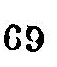69
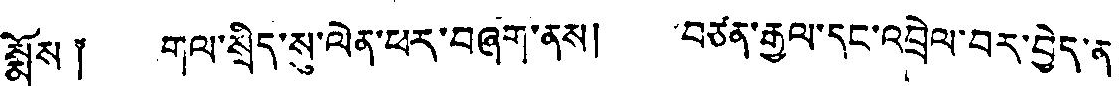སྨོས ༐ གལ་སྲིད་སུ་ལེན་ཕར་བཞག་ནས། བཙན་རྒྱལ་དང་འབྲེལ་བར་བྱེད་ན་
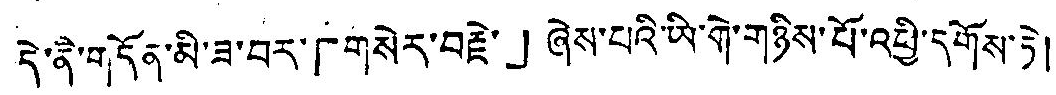དེ་ནི་གདོན་མི་ཟ་བར་「གསེར་བརྗེ་」ཞེས་པའི་ཡི་གེ་གཉིས་པོ་འཕྱི་དགོས་དེ།
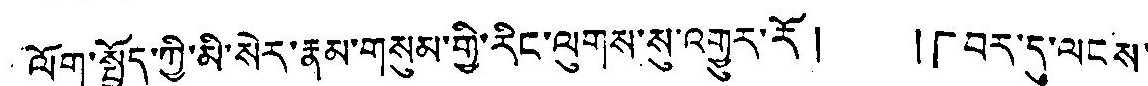ལོག་སྤྱོད་ཀྱི་མི་སེར་རྣམ་གསུམ་གྱི་རིང་ལུགས་སུ་འགྱུར་རོ། །「བར་དུ་ལངས་
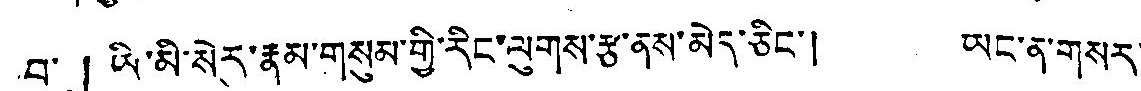བ་」ཡི་མི་སེར་རྣམ་གསུམ་གྱི་རིང་ལུགས་རྩ་ནས་མེད་ཅིང་། ཡང་ན་གསར་
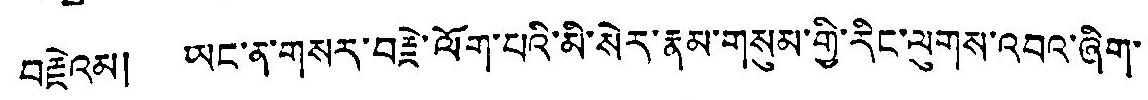བརྗེའམ། ཡང་ན་གསར་བརྗེ་ལོག་པའི་མི་སེར་རྣམ་གསུམ་གྱི་རིང་ལུགས་འབའ་ཞིག་
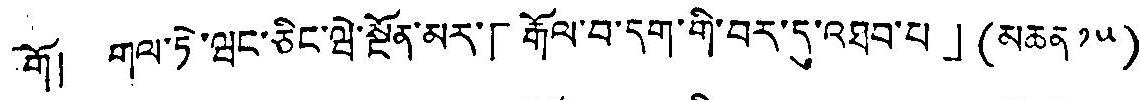གོ། གལ་ཏེ་ཝང་ཅིང་ཝེ་སྔོན་མར་「རྒོལ་བ་དག་གི་བར་དུ་འཐབ་པ」(མཆན ༡༥)
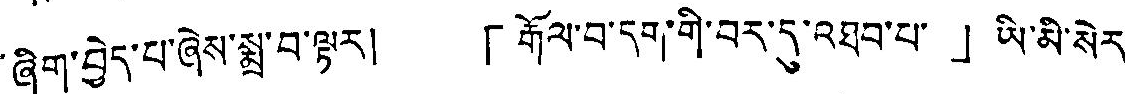ཞིག་བྱེད་པ་ཞེས་སྨྲ་བ་ལྟར། 「རྒོལ་བ་དག་གི་བར་དུ་འཐབ་པ་」ཡི་མི་སེར་
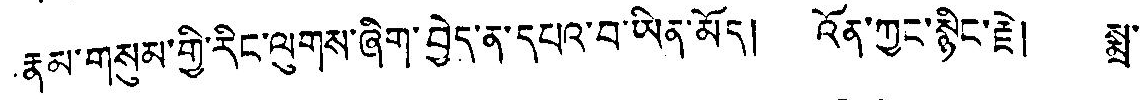རྣམ་གསུམ་གྱི་རིང་ལུགས་ཞིག་བྱེད་ན་དཔའ་བ་ཡིན་མོད། འོན་ཀྱང་སྙིང་རྗེ། སྨྲ་
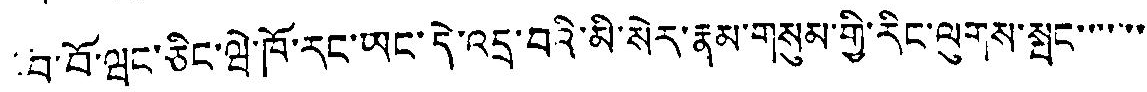བྱ་བོ་ཝང་ཅིང་ཝེ་ཁོ་རང་ཡང་དེ་འདྲ་བའི་མི་སེར་རྣམ་གསུམ་གྱི་རིང་ལུགས་སྤང་་་་་་་
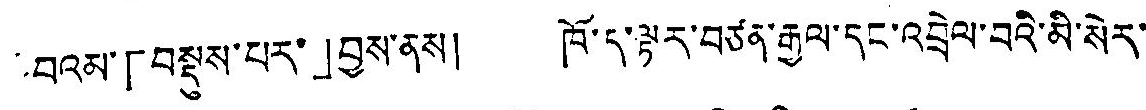བའམ་「བསྡུས་པར་」བྱས་ནས། ཁོ་ད་སྟར་བཙན་རྒྱལ་དང་འབྲེལ་བའི་མི་སེར་
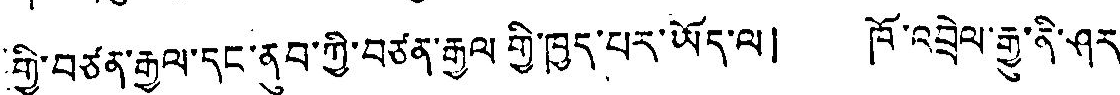གྱི་བཙན་རྒྱལ་དང་ནུབ་ཀྱི་བཙན་རྒྱལ་གྱི་ཁྱད་པར་ཡོད་ལ། ཁོ་འབྲེལ་རྒྱུ་ནི་ཤར་
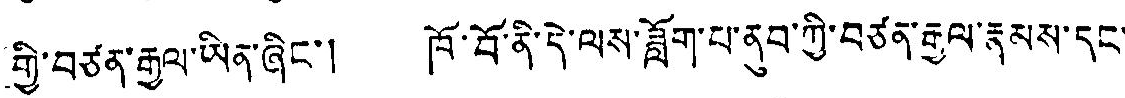གྱི་བཙན་རྒྱལ་ཡིན་ཞིང་། ཁོ་བོ་ནི་དེ་ལས་ཟློག་པ་ནུབ་ཀྱི་བཙན་རྒྱལ་རྣམས་དང་
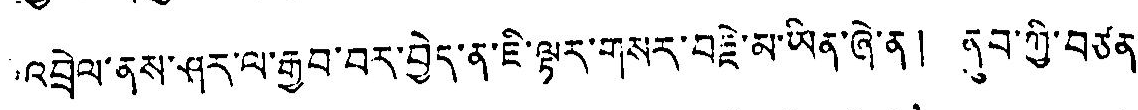འབྲེལ་ནས་ཤར་ལ་རྒྱབ་བར་བྱེད་ན་ཇི་ལྟར་གསར་བརྗེ་མ་ཡིན་ཞེ་ན། ནུབ་ཀྱི་བཙན་
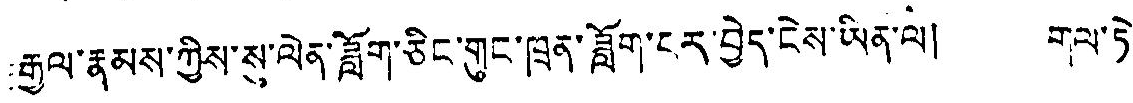རྒྱལ་རྣམས་ཀྱིས་སུ་ལེན་ཟློག་ཅིང་གུང་ཁྲན་ཟློག་ངར་བྱེད་ངེས་ཡིན་ལ། གལ་ཏེ་
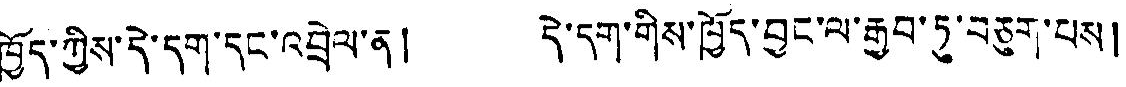ཁྱོད་ཀྱིས་དེ་དག་དང་འབྲེལ་ན། དེ་དག་གིས་ཁྱོད་བྱུང་ལ་རྒྱབ་ཏུ་བཅུག་པས།
